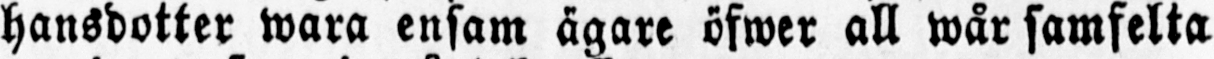hansdotter wara ensam ägare öfwer all wår samfelta
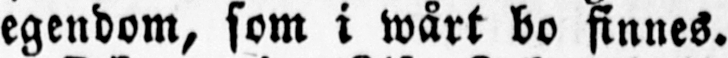egendom, som i wårt bo finnes.
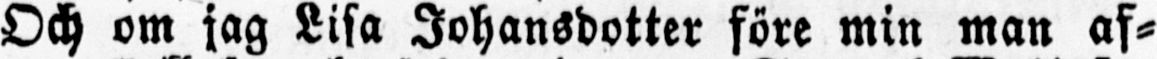Och om jag Lisa Johansdotter före min man af-
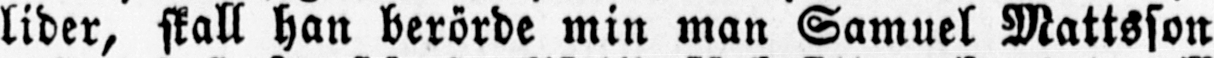lider, skall han berörde min man Samuel Mattsson
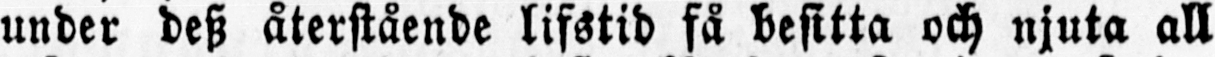under dess återstående lifstid få besitta och njuta all
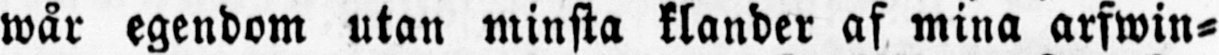wår egendom utan minsta klander af mina arfwin-
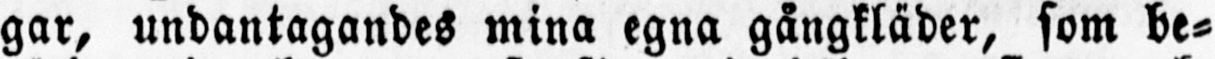gar, undantagandes mina egna gångkläder, som be-
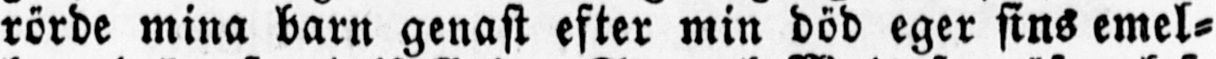rörde mina barn genast efter min död eger sins emel-
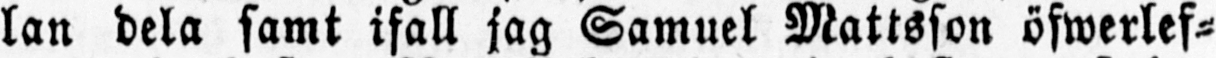lan dela samt ifall jag Samuel Mattsson öfwerlef-
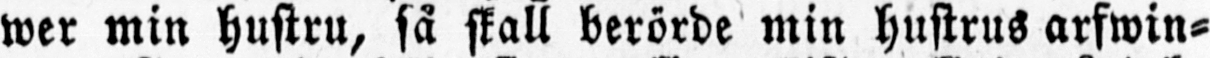wer min hustru, så skall berörde min hustrus arfwin-
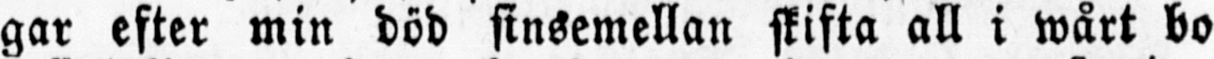gar efter min död sinsemellan skifta all i wårt bo
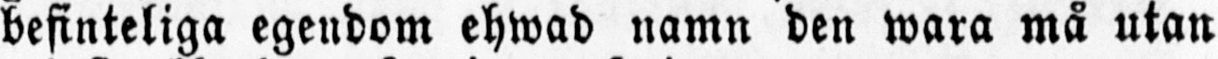besinteliga egendom ehwad namn den wara må utan
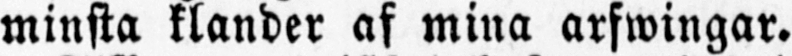minsta klander af mina arfwingar.
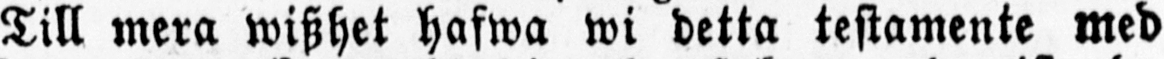Till mera wisshet hafwa wi detta testamente med
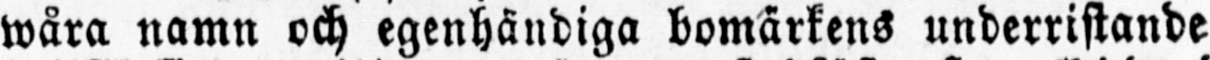wåra namn och egenhändiga bomärkens underristande
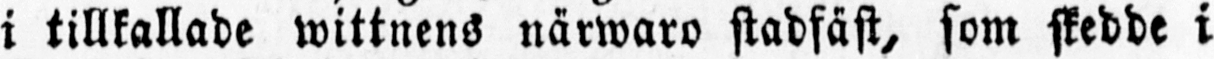i tillkallade wittnens närwaro stadfäst, som skedde i
